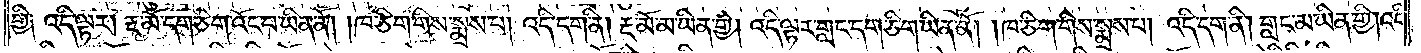གྱི༑ འདི་ལྟར། རྔ་མོ་དག་ཅིག་འོང་བ་ཡིན་ནོ། །ཁ་ཅིག་གིས་སྨྲས་པ། འདི་དག་ནི། རྔ་མོ་མ་ཡིན་གྱི། འདི་ལྟར་གླང་དག་ཅིག་ཡིན་ནོ། །ཁ་ཅིག་གིས་སྨྲས་པ། འདི་དག་ནི། གླང་མ་ཡིན་གྱི། འདི་
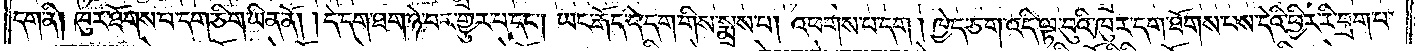དག་ནི། ཁུར་ཐོགས་པ་དག་ཅིག་ཡིན་ནོ། །དེ་དག་ཐག་ཉེ་བར་གྱུར་པ་དང༌། ཡང་རྒོད་དེ་དག་གིས་སྨྲས་པ། འཕགས་པ་དག། ཁྱེད་ཅག་འདི་ལྟ་བུའི་ཁུར་དག་ཐོགས་པས་དེའི་ཕྱིར་རི་བྲག་པ་
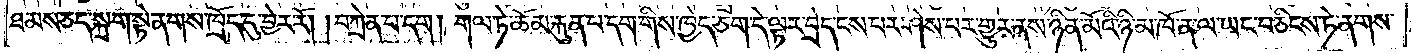ཐམས་ཅད་སྐྲག་སྟེ་ནགས་ཁྲོད་དུ་བྱེར་རོ། །བཀྲེན་པ་དག། གལ་ཏེ་ཆོམ་རྐུན་པ་དག་གིས་ཁྱེད་ཅག་དེ་ལྟར་བྲེད་ངས་པར་ཤེས་པར་གྱུར་ནས་ཉིན་མོའི་ཉི་མ་ཁོ་ན་ལ་ཡང་བཅིངས་ཏེ་ནགས་
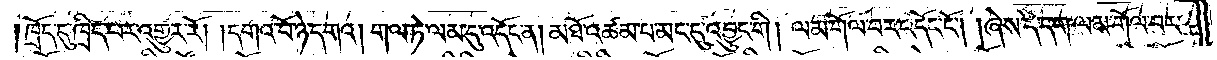ཁྲོད་དུ་ཁྲིད་པར་འགྱུར་རོ། །དགའ་བོ་ཉེ་དགའ། གལ་ཏེ་ལམ་དུ་འདོང་ན། མཐོ་འཚམ་པ་མང་དུ་འབྱུང་གི། ལམ་གོལ་བར་འདོང་ངོ༌། །ཞེས་དེ་དག་ལམ་གོལ་བར་
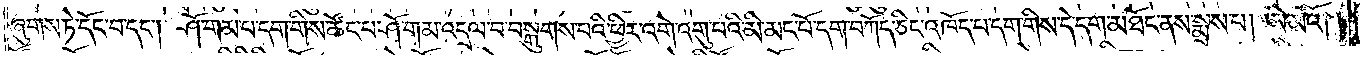ཞུགས་ཏེ་དོང་བ་དང༌། ཤོ་གམ་པ་དག་གིས་ཚོང་པ་ཤོ་གམ་འདྲལ་བ་བསྒུགས་པའི་ཕྱིར་འགེ་འགུ་པའི་མི་མང་པོ་དག་བཀོད་ཅིང་འཁོད་པ་དག་གིས་དེ་དག་མཐོང་ནས་སྨྲས་པ། ཨེ་མའོ། །
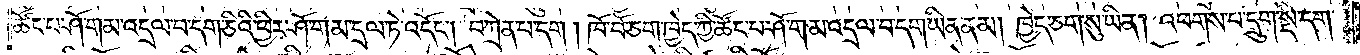ཚོང་པ་ཤོ་གམ་འདྲལ་བ་དག་ཅིའི་ཕྱིར་ཤོ་གམ་དྲལ་ཏེ་འདོང༌། བཀྲེན་པ་དག ། ཁོ་བོ་ཅག་ཁྱེད་ཀྱི་ཚོང་པ་ཤོ་གམ་འདྲལ་བ་དག་ཡིན་ན། ཁྱེད་ཅག་སུ་ཡིན། འཕགས་པ་དྲུག་སྡེ་དག་
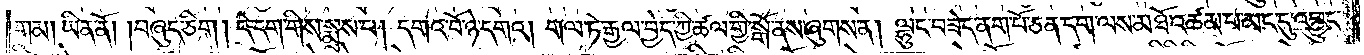གམ། ཡིན་ནོ། །བཞུད་ཅིག། དེ་དག་གིས་སྨྲས་པ། དགའ་བོ་ཉེ་དགའ། གལ་ཏེ་རྒྱལ་བྱེད་ཀྱི་ཚལ་གྱི་སྒོ་ནས་ཞུགས་ན། ལྷུང་བཟེད་ནག་པོ་ཅན་དག་ལས་མཐོ་འཚམ་པ་མང་དུ་འབྱུང་
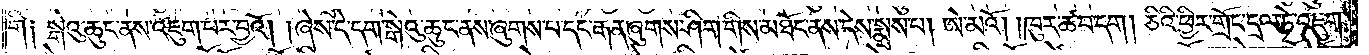གི༑ སྒེའུ་ཆུང་ནས་འཇུག་པར་བྱའོ། །ཞེས་དེ་དག་སྒེའུ་ཆུང་ནས་ཞུགས་པ་དང་རྒན་ཞུགས་ཤིག་གིས་མཐོང་ནས་དེས་སྨྲས་པ། ཨེ་མའོ། །ཁུར་ཚ་བ་དག། ཅིའི་ཕྱིར་གྲོང་དྲལ་ཏེ་འཇུག་
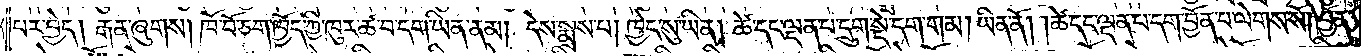པར་བྱེད། རྒན་ཞུགས། ཁོ་བོ་ཅག་ཁྱོད་ཀྱི་ཁུར་ཚ་བ་དག་ཡིན་ནམ། དེས་སྨྲས་པ། ཁྱེད་སུ་ཡིན། ཚེ་དང་ལྡན་པ་དྲུག་སྡེ་དག་གམ། ཡིན་ནོ། །ཚེ་དང་ལྡན་པ་དག་བྱོན་པ་ལེགས་སོ༎བྱོན་
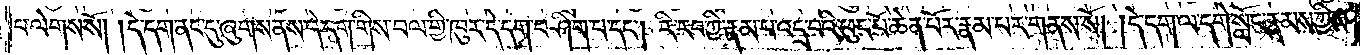པ་ལེགས་སོ། །དེ་དག་ནང་དུ་ཞུགས་ནས་དེ་དག་གིས་བལ་གྱི་ཁུར་དེ་དག་བཤིག་པ་དང༌། རི་རབ་ཀྱི་རྣམ་པ་འདྲ་བའི་ཕུང་པོ་ཆེན་པོར་རྣམ་པར་གནས་སོ། དེ་དག་ལ་དགེ་སློང་རྣམས་ཀྱིས་
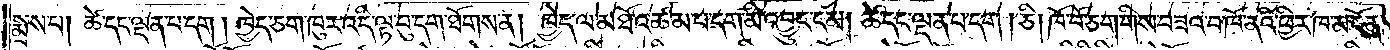སྨྲས་པ། ཚེ་དང་ལྡན་པ་དག ། ཁྱེད་ཅག་ཁུར་འདི་ལྟ་བུ་དག་ཐོགས་ན། ཁྱེད་ལ་མཐོ་འཚམ་པ་དག་མི་འབྱུང་ངམ། ཚེ་དང་ལྡན་པ་དག ། ཅི། ཁོ་བོ་ཅག་གིས་བཟའ་བ་ཁོ་ནའི་ཕྱིར་ཁ་མངོན་
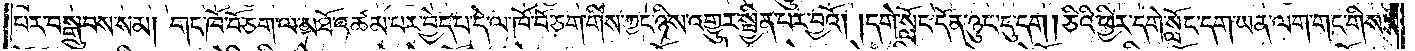པར་བསྒྲུབས་སམ། གང་ཁོ་བོ་ཅག་ལ་མཐོ་འཚམ་པར་བྱེད་པ་དེ་ལ་ཁོ་བོ་ཅག་གིས་ཀྱང་ཉིས་འགྱུར་སྦྱིན་པར་བྱའོ། །དགེ་སློང་དོན་ཉུང་ངུ་དག། ཅིའི་ཕྱིར་དགེ་སློང་དག་ཡན་ལག་གང་གིས་
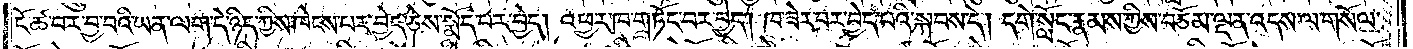ངོ་ཚ་བར་བྱ་བའི་ཡན་ལག་དེ་ཉིད་ཀྱིས་ཁེངས་པར་བྱེད་ཅེས་སྨོད་པར་བྱེད། འཕྱར་ཁ་གཏོང་བར་བྱེད། ཁ་ཟེར་བར་བྱེད་པའི་སྐབས་དེ། དགེ་སློང་རྣམས་ཀྱིས་བཅོམ་ལྡན་འདས་ལ་གསོལ་
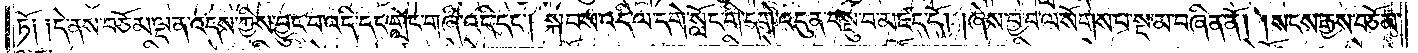ཏོ༑ ༑དེ་ནས་བཅོམ་ལྡན་འདས་ཀྱིས་བྱུང་བ་འདི་དང་གླེང་གཞི་འདི་དང༌། སྐབས་འདི་ལ་དགེ་སློང་གི་དགེ་འདུན་བསྡུ་བ་མཛད་དོ། །ཞེས་བྱ་བ་ལ་སོགས་པ་སྔ་མ་བཞིན་ནོ། །སངས་རྒྱས་བཅོམ་
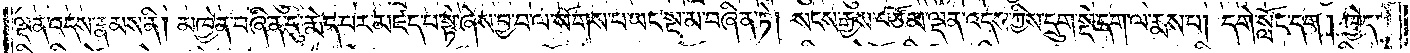ལྡན་འདས་རྣམས་ནི། མཁྱེན་བཞིན་དུ་རྨེད་པར་མཛད་པ་སྟེ་ཞེས་བྱ་བ་ལ་སོགས་པ་ཡང་སྔ་མ་བཞིན་ཏེ། སངས་རྒྱས་བཅོམ་ལྡན་འདས་ཀྱིས་དྲུག་སྡེ་དག་ལ་རྨས་པ། དགེ་སློང་དག། ཁྱེད་
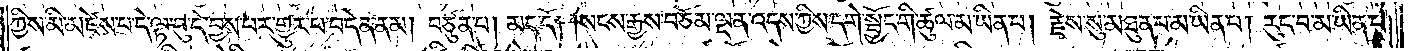ཀྱིས་མི་མཛེས་པ་དེ་ལྟ་བུ་དེ་བྱས་པར་གྱུར་པ་བདེན་ནམ། བཙུན་པ། མད་དོ། །སངས་རྒྱས་བཅོམ་ལྡན་འདས་ཀྱིས་དགེ་སྦྱོང་གི་ཚུལ་མ་ཡིན་པ། རྗེས་སུ་མཐུན་པ་མ་ཡིན་པ། རུང་བ་མ་ཡིན་པ།
